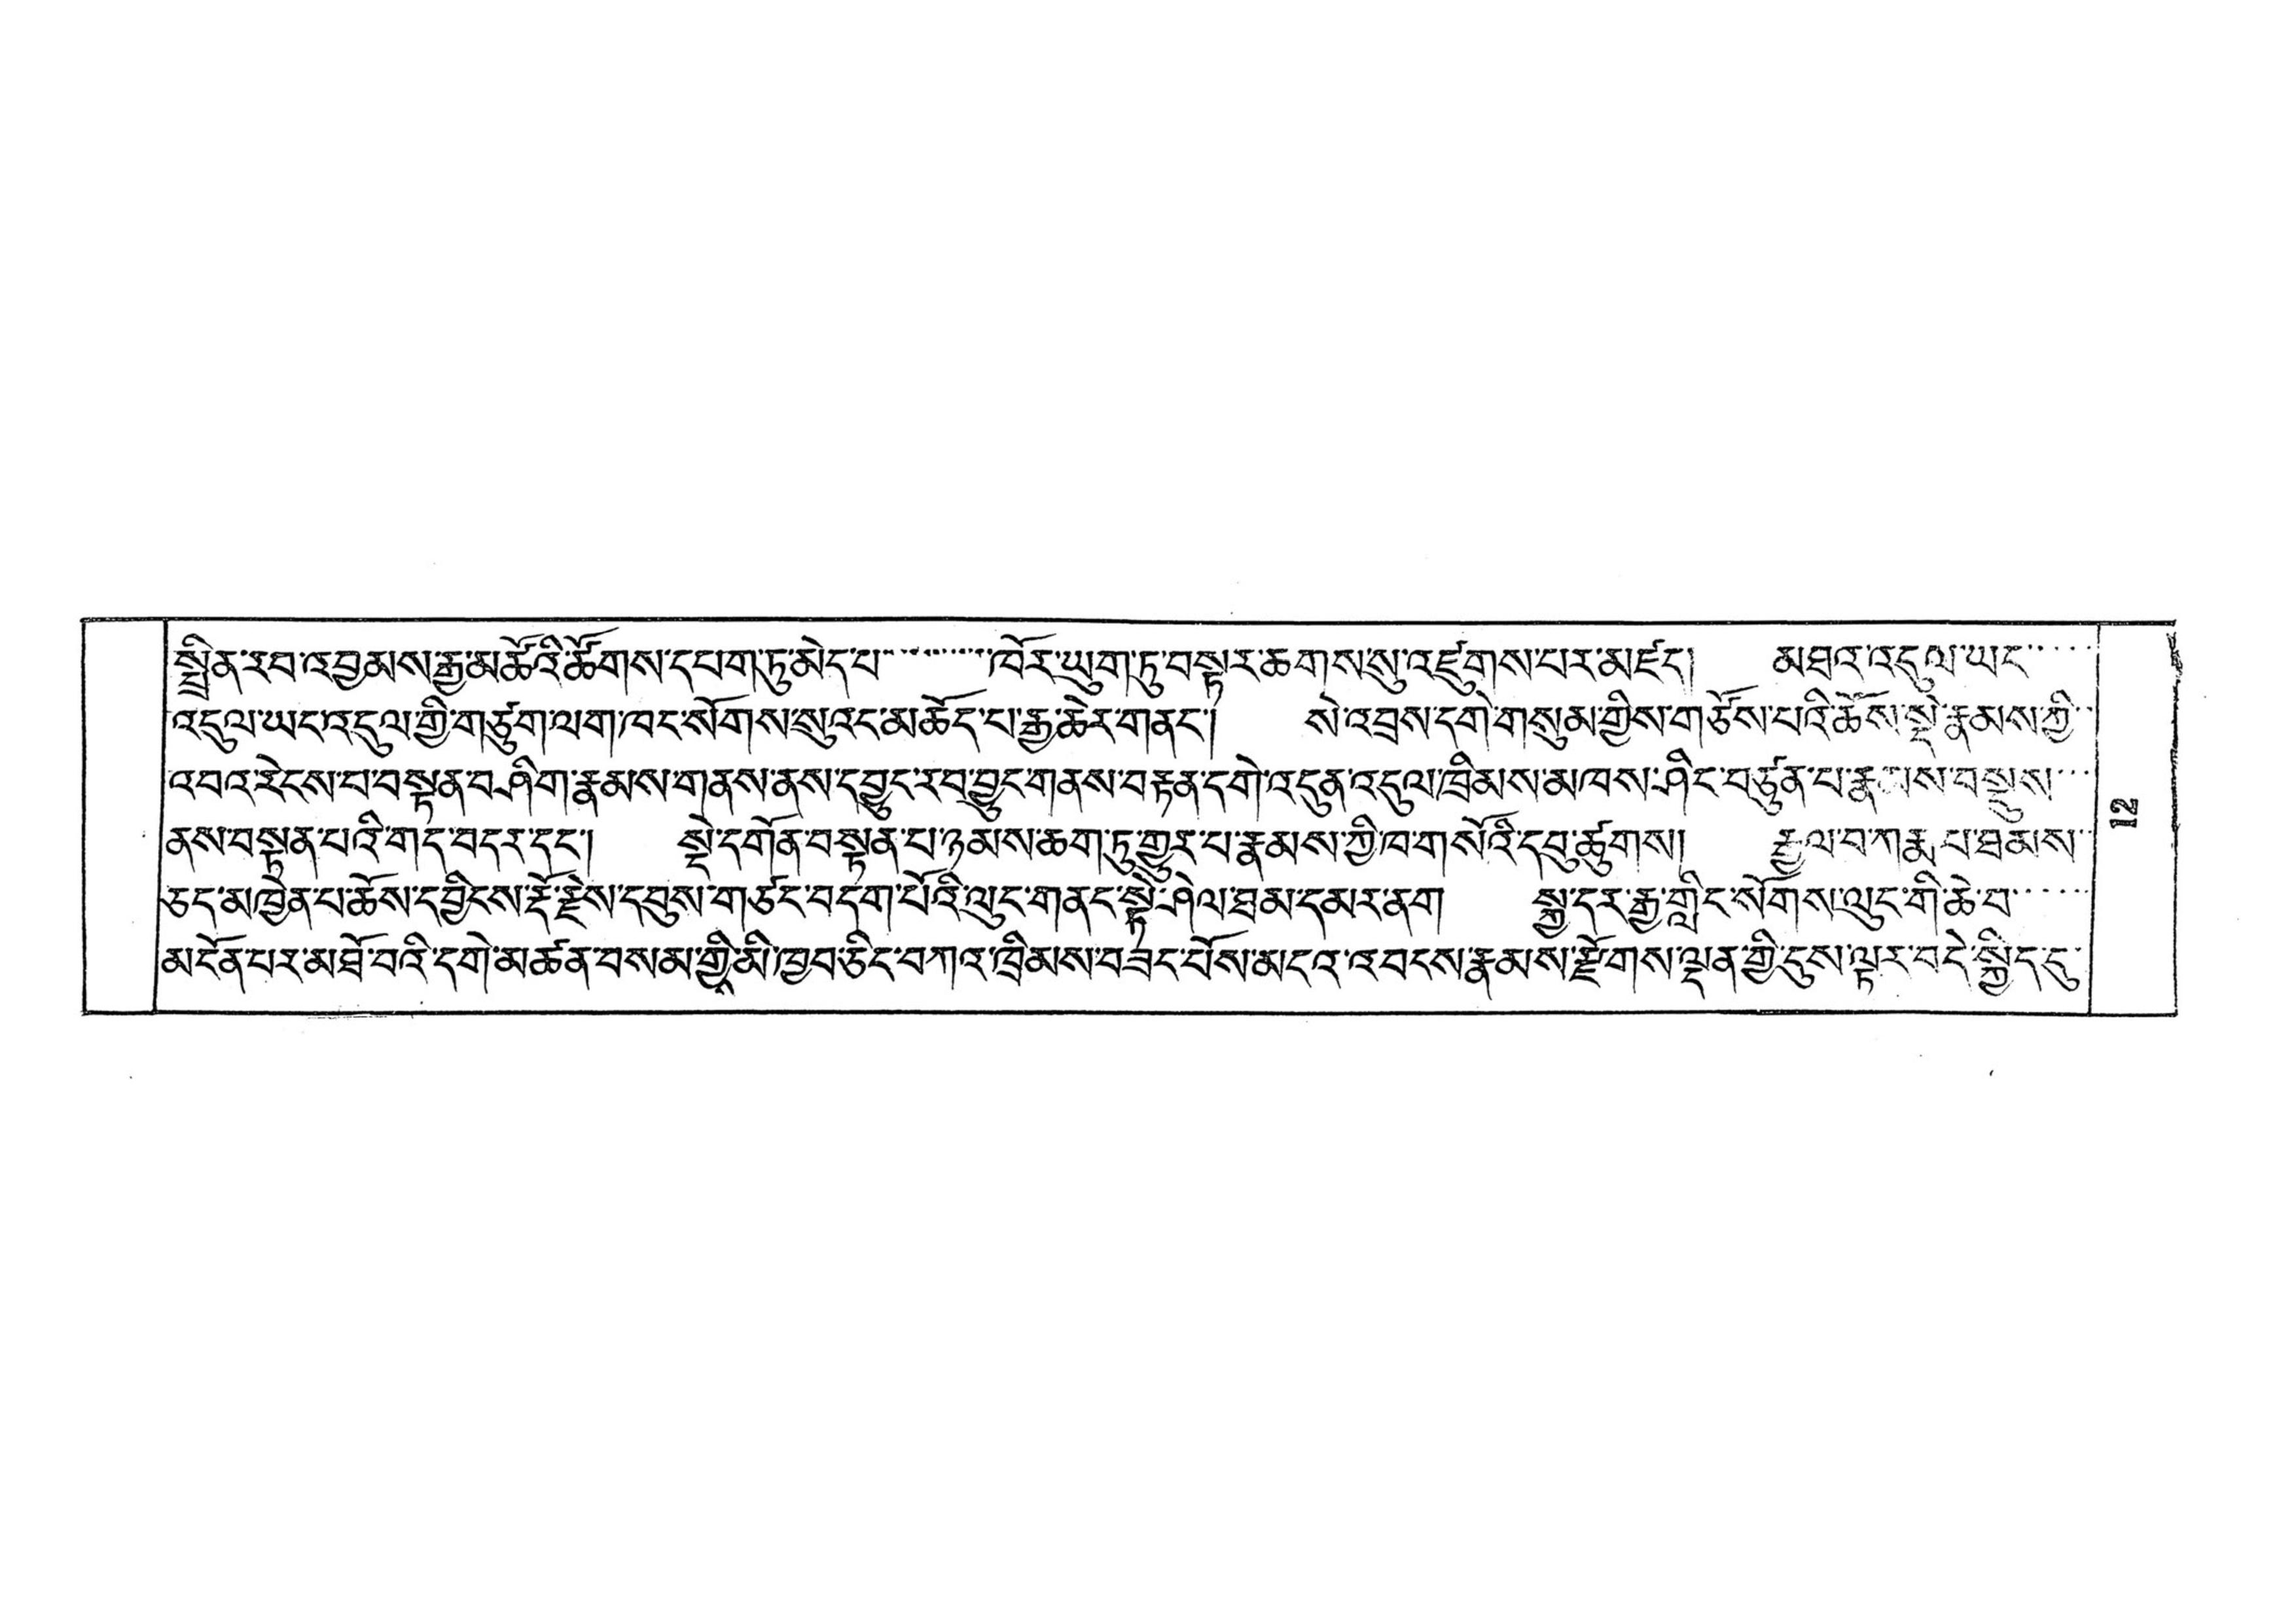སྤྲིན་རབ་འབྱམས་རྒྱ་མཚོའི་ཚོགས་དཔག་ཏུ་མེད་པ་་་་་་་ཁོར་ཨུག་ཏུ་བསྟར་ཆག་ས་སུ་འཛུགས་པར་མཛད། མཐའ་འདུལ་ཡང་་་་་
འདུལ་ཡང་འདུལ་གྱི་གཙུག་ལག་ཁང་སོགས་སུའང་མཆོད་པ་རྒྱ་ཆེར་གནང་། སེ་འབྲས་དགེ་གསུམ་གྱིས་གཙོས་པའི་ཆོས་སྡེ་རྣམས་ཀྱི་་
འབའ་རེངས་པ་བསྟན་བཤིག་རྣམས་གནས་ནས་དབྱུང་རབ་བྱུང་གནས་བརྟན་དགེ་འདུན་འདུལ་ཁྲིམས་མཁས་ཤིང་བཙུན་པ་རྣམས་བསྡུས་་་
ནས་བསྟན་པའི་གད་བདར་དང་། སྡེ་དགོན་བསྟན་པ་ཉམས་ཆག་ཏུ་གྱུར་པ་རྣམས་ཀྱི་ཁ་གསོའི་དབུ་ཚུགས། རྒྱལ་བ་ཀརྨཔ་ཐམས་་
ཅད་མཁྱེན་པ་ཆོས་དབྱིངས་རྡོ་རྗེས་དབུས་གཙང་བདག་པོའི་ལུང་གནང་སྟེ་ཤེལ་ཐམ་དམར་ནག སྐྱ་དར་རྒྱ་གླིང་སོགས་ལུང་གི་ཆེ་པ་་་་་་
མངོན་པར་མཐོ་བའི་དགེ་མཚན་བསམ་གྱིས་མི་ཁྱབ་ཅིང་བཀའ་ཁྲིམས་བཟད་པོས་མདར་འབངས་རྣམས་རྫོགས་ལྡན་གྱི་དུས་ལྟར་བདེ་སྐྱིད་དུ་
